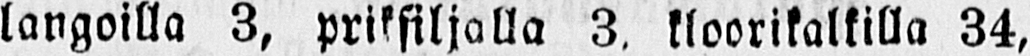langoilla 3, priksiljalla 3, kloorikalkilla 34,
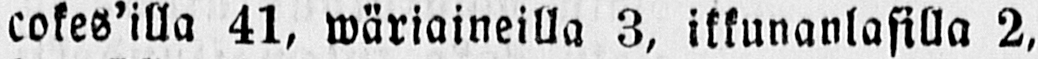cokes’illa 41, wäriaineilla 3, ikkunanlasilla 2,
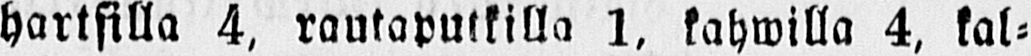hartsilla 4, rautaputkilla 1, kahwilla 4, kal-
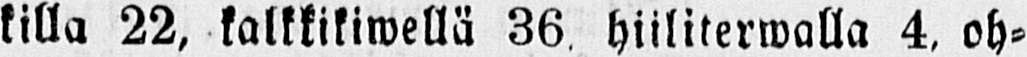killa 22, kalkkikiwellä 36 hiiliterwalla 4, oh-
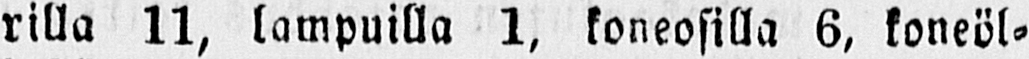rilla 11, lampuilla 1, koneosilla 6, koneöl-
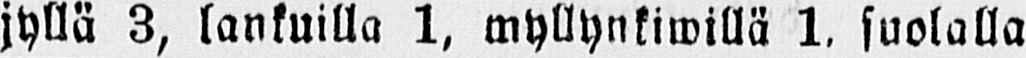jyllä 3, lankuilla 1, myllynkiwillä 1, suolalla
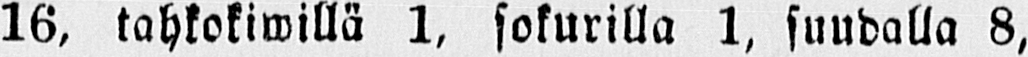16, tahkokiwillä 1, sokurilla 1, suudalla 8,
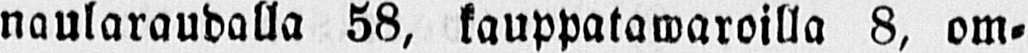naularaudalla 58, kauppatawaroilla 8, om-
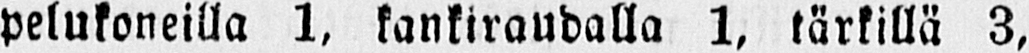pelukoneilla 1, kankiraudalla 1, tärkillä 3,
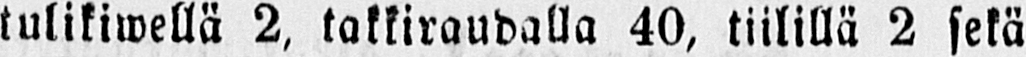tulikiwellä 2, takkiraudalla 40, tiilillä 2 sekä
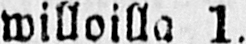willoilla 1.
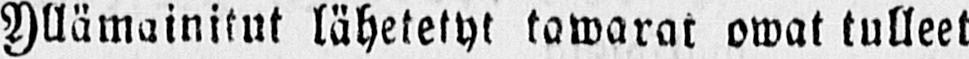Yllämainitut lähetetyt tawarat owat tulleet
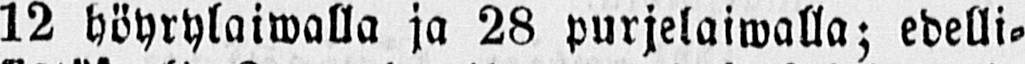12 höyrylaiwalla ja 28 purjelaiwalla; edelli-
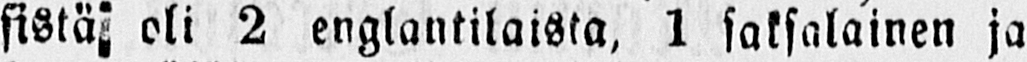sistä oli 2 englantilaista, 1 saksalainen ja
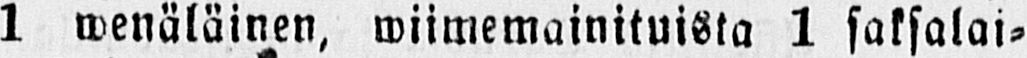1 wenäläinen, wiimemainituista 1 saksalai-
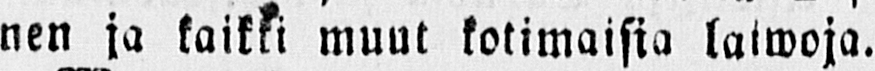nen ja kaikki muut kotimaisia laiwoja.
